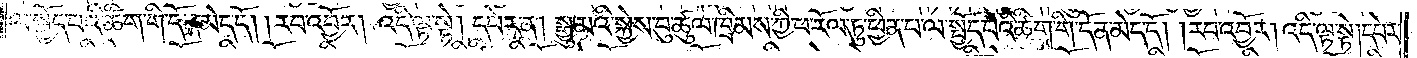ལ་སྤྱོད་པའི་ཚིག་གི་དོན་མེད་དོ། །རབ་འབྱོར། འདི་ལྟ་སྟེ། དཔེར་ན། སྒྱུ་མའི་སྐྱེས་བུ་ཚུལ་ཁྲིམས་ཀྱི་ཕ་རོལ་ཏུ་ཕྱིན་པ་ལ་སྤྱོད་པའི་ཚིག་གི་དོན་མེད་དོ། །རབ་འབྱོར། འདི་ལྟ་སྟེ། དཔེར་
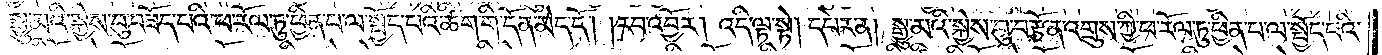ན། སྒྱུ་མའི་སྐྱེས་བུ་བཟོད་པའི་ཕ་རོལ་ཏུ་ཕྱིན་པ་ལ་སྤྱོད་པའི་ཚིག་གི་དོན་མེད་དོ། །རབ་འབྱོར། འདི་ལྟ་སྟེ། དཔེར་ན། སྒྱུ་མའི་སྐྱེས་བུ་བརྩོན་འགྲུས་ཀྱི་ཕ་རོལ་ཏུ་ཕྱིན་པ་ལ་སྤྱོད་པའི་
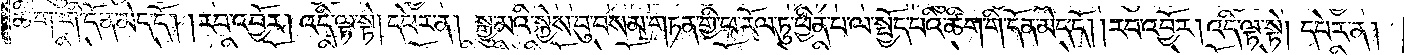ཚིག་གི་དོན་མེད་དོ། །རབ་འབྱོར། འདི་ལྟ་སྟེ། དཔེར་ན། སྒྱུ་མའི་སྐྱེས་བུ་བསམ་གཏན་གྱི་ཕ་རོལ་ཏུ་ཕྱིན་པ་ལ་སྤྱོད་པའི་ཚིག་གི་དོན་མེད་དོ། །རབ་འབྱོར། འདི་ལྟ་སྟེ། དཔེར་ན།
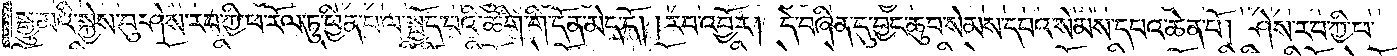སྒྱུ་མའི་སྐྱེས་བུ་ཤེས་རབ་ཀྱི་ཕ་རོལ་ཏུ་ཕྱིན་པ་ལ་སྤྱོད་པའི་ཚིག་གི་དོན་མེད་དོ། །རབ་འབྱོར། དེ་བཞིན་དུ་བྱང་ཆུབ་སེམས་དཔའ་སེམས་དཔའ་ཆེན་པོ། ཤེས་རབ་ཀྱི་ཕ་
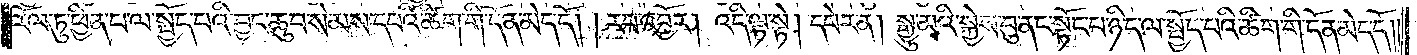རོལ་ཏུ་ཕྱིན་པ་ལ་སྤྱོད་པའི་བྱང་ཆུབ་སེམས་དཔའི་ཚིག་གི་དོན་མེད་དོ། །རབ་འབྱོར། འདི་ལྟ་སྟེ། དཔེར་ན། སྒྱུ་མའི་སྐྱེས་བུ་ནང་སྟོང་པ་ཉིད་ལ་སྤྱོད་པའི་ཚིག་གི་དོན་མེད་དོ༎
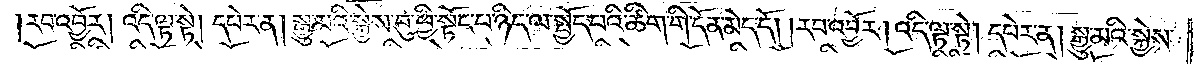རབ་འབྱོར། འདི་ལྟ་སྟེ། དཔེར་ན། སྒྱུ་མའི་སྐྱེས་བུ་ཕྱི་སྟོང་པ་ཉིད་ལ་སྤྱོད་པའི་ཚིག་གི་དོན་མེད་དོ། །རབ་འབྱོར། འདི་ལྟ་སྟེ། དཔེར་ན། སྒྱུ་མའི་སྐྱེས་
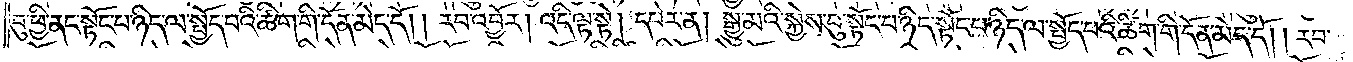བུ་ཕྱི་ནང་སྟོང་པ་ཉིད་ལ་སྤྱོད་པའི་ཚིག་གི་དོན་མེད་དོ། །རབ་འབྱོར། འདི་ལྟ་སྟེ། དཔེར་ན། སྒྱུ་མའི་སྐྱེས་བུ་སྟོང་པ་ཉིད་སྟོང་པ་ཉིད་ལ་སྤྱོད་པའི་ཚིག་གི་དོན་མེད་དོ། །རབ་
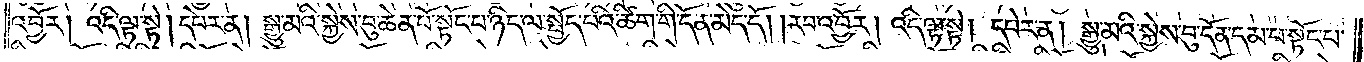འབྱོར། འདི་ལྟ་སྟེ། དཔེར་ན། སྒྱུ་མའི་སྐྱེས་བུ་ཆེན་པོ་སྟོང་པ་ཉིད་ལ་སྤྱོད་པའི་ཚིག་གི་དོན་མེད་དོ། །རབ་འབྱོར། འདི་ལྟ་སྟེ། དཔེར་ན། སྒྱུ་མའི་སྐྱེས་བུ་དོན་དམ་པ་སྟོང་པ་
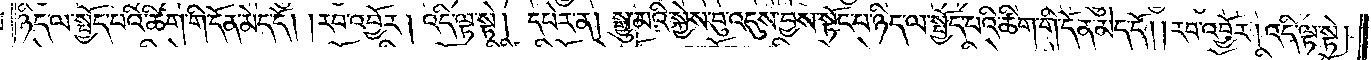ཉིད་ལ་སྤྱོད་པའི་ཚིག་གི་དོན་མེད་དོ། །རབ་འབྱོར། འདི་ལྟ་སྟེ། དཔེར་ན། སྒྱུ་མའི་སྐྱེས་བུ་འདུས་བྱས་སྟོང་པ་ཉིད་ལ་སྤྱོད་པའི་ཚིག་གི་དོན་མེད་དོ། །རབ་འབྱོར། འདི་ལྟ་སྟེ།
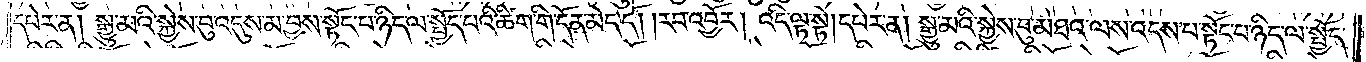དཔེར་ན། སྒྱུ་མའི་སྐྱེས་བུ་འདུས་མ་བྱས་སྟོང་པ་ཉིད་ལ་སྤྱོད་པའི་ཚིག་གི་དོན་མེད་དོ། །རབ་འབྱོར། འདི་ལྟ་སྟེ། དཔེར་ན། སྒྱུ་མའི་སྐྱེས་བུ་མཐའ་ལས་འདས་པ་སྟོང་པ་ཉིད་ལ་སྤྱོད་
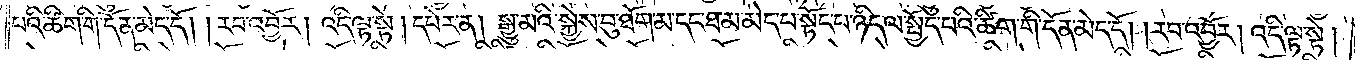པའི་ཚིག་གི་དོན་མེད་དོ། །རབ་འབྱོར། འདི་ལྟ་སྟེ། དཔེར་ན། སྒྱུ་མའི་སྐྱེས་བུ་ཐོག་མ་དང་ཐ་མ་མེད་པ་སྟོང་པ་ཉིད་ལ་སྤྱོད་པའི་ཚིག་གི་དོན་མེད་དོ། །རབ་འབྱོར། འདི་ལྟ་སྟེ།
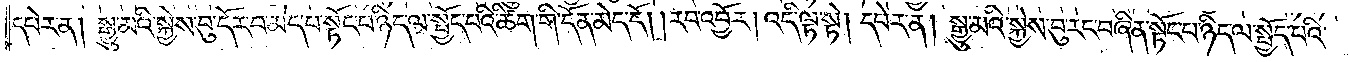དཔེར་ན། སྒྱུ་མའི་སྐྱེས་བུ་དོར་བ་མེད་པ་སྟོང་པ་ཉིད་ལ་སྤྱོད་པའི་ཚིག་གི་དོན་མེད་དོ། །རབ་འབྱོར། འདི་ལྟ་སྟེ། དཔེར་ན། སྒྱུ་མའི་སྐྱེས་བུ་རང་བཞིན་སྟོང་པ་ཉིད་ལ་སྤྱོད་པའི་
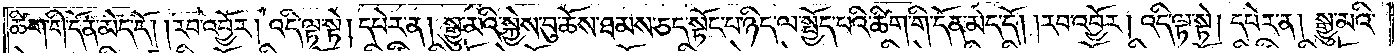ཚིག་གི་དོན་མེད་དོ། །རབ་འབྱོར། འདི་ལྟ་སྟེ། དཔེར་ན། སྒྱུ་མའི་སྐྱེས་བུ་ཆོས་ཐམས་ཅད་སྟོང་པ་ཉིད་ལ་སྤྱོད་པའི་ཚིག་གི་དོན་མེད་དོ། །རབ་འབྱོར། འདི་ལྟ་སྟེ། དཔེར་ན། སྒྱུ་མའི་
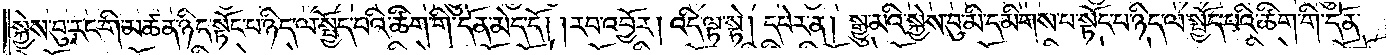སྐྱེས་བུ་རང་གི་མཚན་ཉིད་སྟོང་པ་ཉིད་ལ་སྤྱོད་པའི་ཚིག་གི་དོན་མེད་དོ། །རབ་འབྱོར། འདི་ལྟ་སྟེ། དཔེར་ན། སྒྱུ་མའི་སྐྱེས་བུ་མི་དམིགས་པ་སྟོང་པ་ཉིད་ལ་སྤྱོད་པའི་ཚིག་གི་དོན་
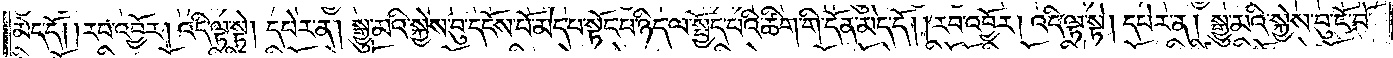མེད་དོ། །རབ་འབྱོར། འདི་ལྟ་སྟེ། དཔེར་ན། སྒྱུ་མའི་སྐྱེས་བུ་དངོས་པོ་མེད་པ་སྟོང་པ་ཉིད་ལ་སྤྱོད་པའི་ཚིག་གི་དོན་མེད་དོ། །རབ་འབྱོར། འདི་ལྟ་སྟེ། དཔེར་ན། སྒྱུ་མའི་སྐྱེས་བུ་ངོ་བོ་
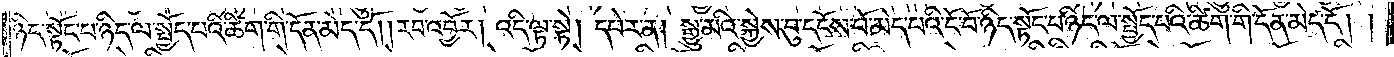ཉིད་སྟོང་པ་ཉིད་ལ་སྤྱོད་པའི་ཚིག་གི་དོན་མེད་དོ། །རབ་འབྱོར། འདི་ལྟ་སྟེ། དཔེར་ན། སྒྱུ་མའི་སྐྱེས་བུ་དངོས་པོ་མེད་པའི་ངོ་བོ་ཉིད་སྟོང་པ་ཉིད་ལ་སྤྱོད་པའི་ཚིག་གི་དོན་མེད་དོ། །
